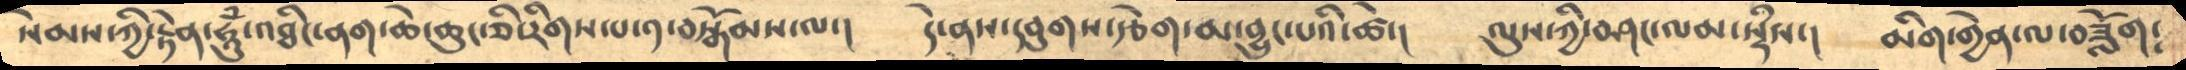སེམས་ཀྱི་རྟེན་ཧཱུཾ་འཐིང་ནག་ཆེ་ཆུང་ཅི་རིགས་པ་༡་བསྒོམས་ལ་།    དེ་ནས་དབུགས་རྩེག་མ་བྱུང་པའི་ཚེ་།   ལུས་ཀྱི་བཤང་ལམ་སྡཾས་།    མིག་གྱེན་ལ་བཟློག༴
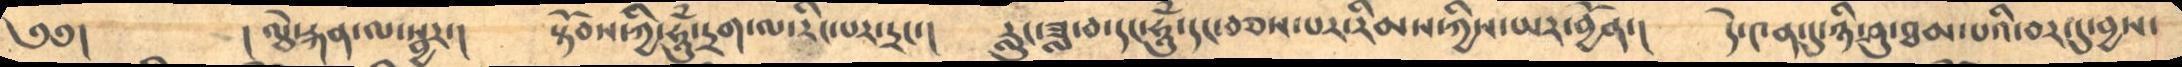༄༅།       །ལྕེ་རྐན་ལ་སྦྱར་།    སྟོབས་ཀྱི་ཧཱུཾ་དྲག་ལ་རིང་པར་དྲང་།    རླུང་ཟླ་བ་དང་ཧཱུཾ་དང་བཅས་པར་རིམས་ཀྱིས་ཡར་བྱོན་།   དེ་༤ན་དུ་ཉི་ཤུ་ཐམ་པའི་བར་དུ་བྱས་
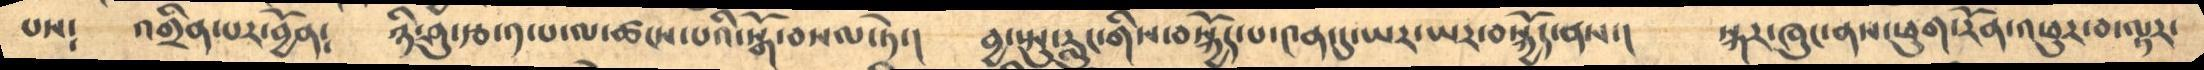པས༴    འགྲིན་པར་བྱོན༴   ཉི་ཤུ་རྩ་༡་པ་ལ་ཚངས་པའི་སྒོ་བསལ་ཏེ་།    བྱ་སྤུ་རླུང་གིས་བསྐྱོད་པ་༤ན་དུ་ཡར་ཡར་བསྐྱོད་ནས་།   སྐར་ཁུང་ནས་ཕུག་རོན་འཕུར་བ་ལྟར་
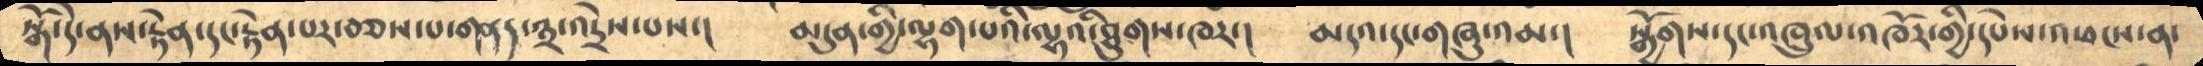སྒོ་དེ་ནས་རྟེན་དང་རྟེན་པར་བཅས་པ་གནད་༣་འདྲེས་པས་།   མདུན་གྱི་ལྷག་པའི་ལྷའི་ཐུགས་ཁར་།   མདའ་དང་གཞུ་འམ་།   སྒྱོགས་དང་འཁྲུལ་འཁོར་གྱི་དཔེས་འཕངས་ན་
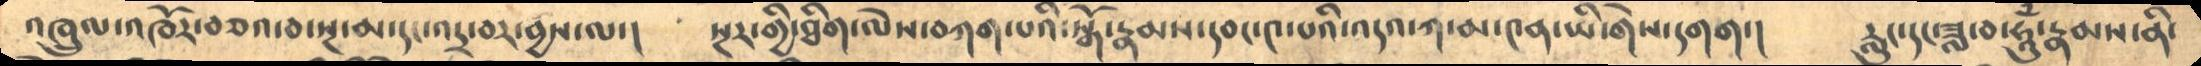འཁྲུལ་འཁོར་བཅའ་བ་སྔ་མ་དང་འདྲ་བར་བྱས་ལ་།     སྔར་གྱི་ཐིག་ལེས་བཀག་པའི་སྒོ་རྣམས་དབང་༤་པའི་འདའ་ཀ་མ་༤ན་ཡི་གེས་དགག་།   རླུང་དང་ཟླ་བ་ཧཱུཾ་རྣམས་ནི་
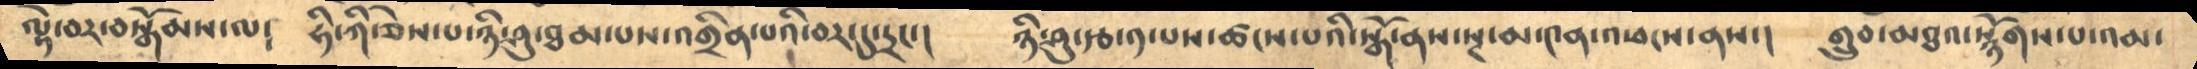ལྟེ་བར་བསྒོམས་ལ༴    དྷི་ཀི་ཅེས་པ་ཉི་ཤུ་ཐམ་པས་འགྲིན་པའི་བར་དུ་དྲང་།    ཉི་ཤུ་རྩ་༡་པས་ཚངས་པའི་སྒོ་ནས་སྔ་མ་༤ན་འཕངས་ནས་།    གྲུབ་མཐའ་སྙོགས་པ་འམ་
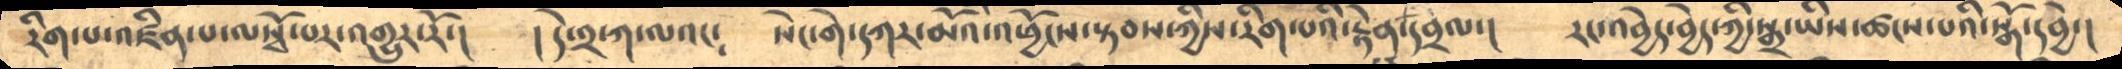རིག་པ་འཛིན་པ་ལསྭོ་པར་འགྱུར་རོ་།     །དེ་༢་ཀ་ལའང༴    སེང་གེ་དཀར་མོའི་འཕྱོངས་སྟབས་ཀྱིས་རིག་པའི་རྟེན་དབྲལ་།   རང་འབྱེད་བྱེད་ཀྱི་སྒྲ་ཡིས་ཚངས་པའི་སྒོ་དབྱེ་།
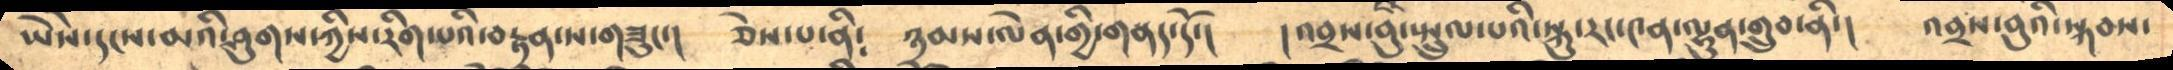ཡཻས་དངས་མའི་ཤུགས་ཀྱིས་རིག་པའི་བརྟན་ས་གཟུང་།    ཅེས་པ་ནི༴    ཉམས་ལེན་གྱི་གནད་དོ་།   །འབྲས་བུ་སྤྲུལ་པའི་སྐུ་རང་༤ན་ལྷུན་གྲུབ་ནི་།    འབྲས་བུའི་སྐབས་
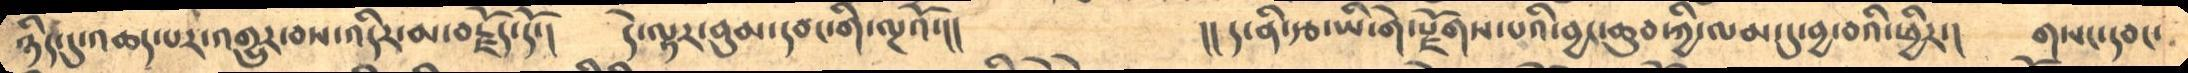ཉིད་དུ་འཆད་པར་འགྱུར་བས་འདིར་མ་བརྗོད་དོ་།     དེ་ལྟར་བུམ་དབང་གི་ལྔའོ་།།     །།ད་ནི་རྩ་ཡི་གེ་རྫོགས་པའི་བྱང་ཆུབ་ཀྱི་ལམ་དུ་བྱ་བའི་ཕྱིར་།    གསང་དབང་
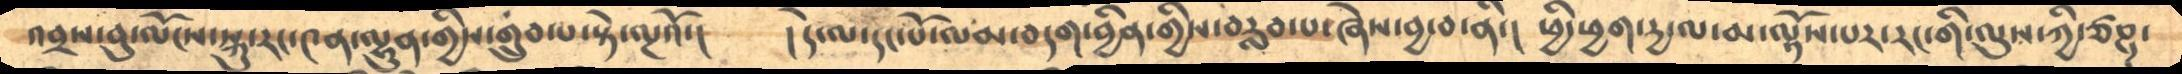འབྲས་བུ་ལོངས་སྐུ་རང་༤ན་ལྷུན་གྱིས་གྲུབ་པ་སྟེ་ལྔའོ་།      །དེ་ལ་དང་པོ་ལམ་བདག་བྱིན་གྱིས་བརླབ་པ་ཞེས་བྱ་བ་ནི་།   ཕྱི་ཕྱག་དྱ་ལ་མ་ལྟོས་པར་རང་གི་ལུས་ཀྱི་ཙཎྜ་
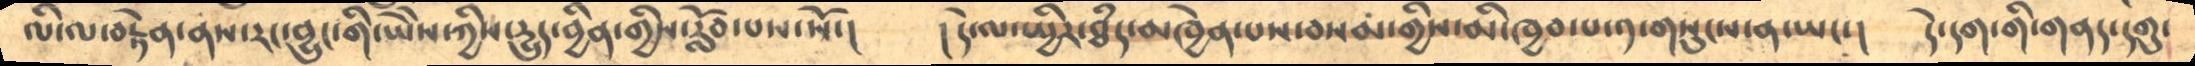ལི་ལ་བརྟེན་ནས་རང་བྱུང་གི་ཡཻས་ཀྱིས་དྱུད་བྱིན་གྱིས་རློབ་པས་སོ་།       །དེ་ལ་སྤྱིར་ཐཾད་མཁྱེན་པས་བསམ་གྱིས་མི་ཁྱབ་པ་༡་གསུངས་ན་ཡང་།   དེ་དག་གི་གནད་དགུ་
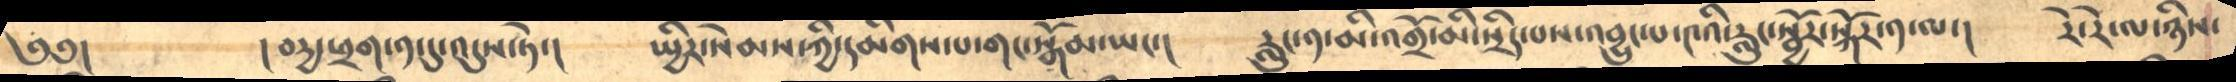༄༅།        །བདྱ་ཕྲག་༡་དུ་འདུས་ཏེ་།      སྤྱིར་སེམས་ཀྱི་དམིགས་པ་གང་སྒོམ་ཡང་།   རླུང་༡་མི་འགྲོ་མི་སྲིད་པས་འབྱུང་པ་༤འི་རླུང་སྦྱོར་སྐོར་༡་ལ་།    རེ་རེ་ལ་ཉིས་
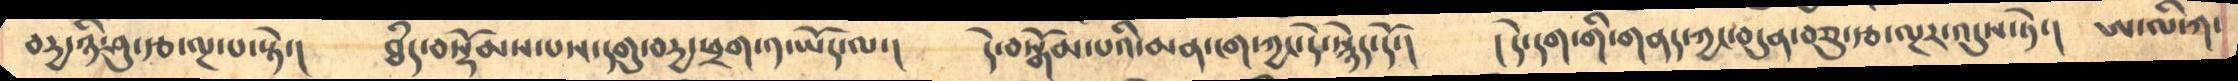བདྱ་ཉི་ཤུ་རྩ་ལྔ་པ་སྟེ་།     ཐཾད་བསྡོམས་པས་དགུ་བདྱ་ཕྲག་༡་ཡོད་ལ་།    དེ་བསྒོམ་པའི་མན་ངག་ཀྱང་དེ་སྙེད་དོ་།    །དེ་དག་གི་གནད་ཀྱང་བདུན་བཅུ་རྩ་ལྔར་འདུས་ཏེ་།   ཨ་ལི་ཀ་
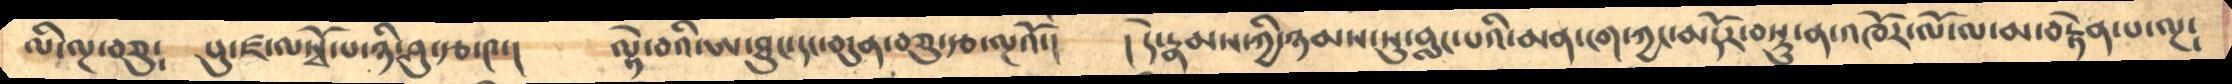མི་ལྔ་བཅུ༴   པུ་ཛ་ལསྭོ་པ་ཉི་ཤུ་རྩ་༤་།      ལྟེ་བའི་ཨ་ཐུང་དང་བདུན་བཅུ་རྩ་ལྔའོ་།      །དེ་རྣམས་ཀྱི་ཉམས་སུ་བླང་པའི་མན་ངག་ཀྱང་མདོར་བསྡུ་ན་འཁོར་ལོ་ལ་མ་བརྟེན་པ་ལྔ༴
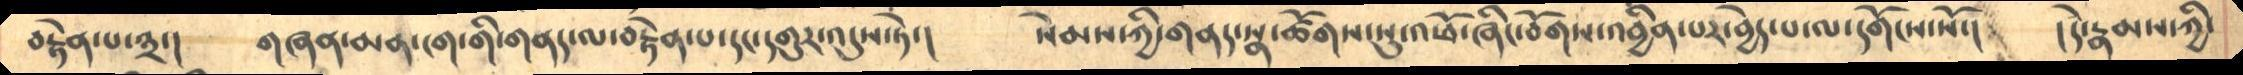བརྟེན་པ་༣་།   གཞན་མན་ངག་གི་གནད་ལ་བརྟེན་པ་དང་དགུར་འདུས་ཏེ་།   སེམས་ཀྱི་གནད་སྣ་ཚོགས་སུ་འཕོ་ཞིང་བོགས་འབྱིན་པར་བྱེད་པ་ལ་དགོངས་སོ་།    །དེ་རྣམས་ཀྱི་
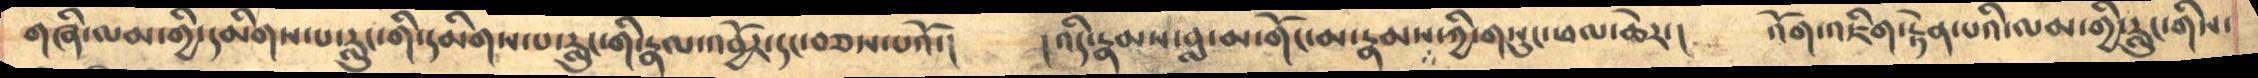གཞི་ལམ་གྱི་དམིགས་པ་རླུང་གི་དམིགས་པ་རླུང་གི་རྣལ་འབྱོར་དང་བཅས་པའོ་།      །འདི་རྣམས་བླ་མ་གོང་མ་རྣམས་ཀྱི་གསུང་ཕལ་ཆེར་།     འོག་འཇིག་རྟེན་པའི་ལམ་གྱི་རླུང་གིས་
